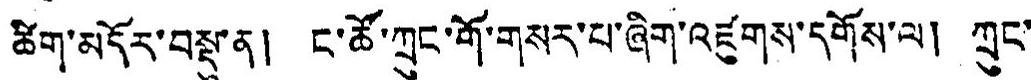ཚིག་མདོར་བསྟུ་ན། ང་ཚོ་ཀྲུང་གོ་གསར་པ་ཞིག་འཛུགས་དགོས་ལ། ཀྲུང་
